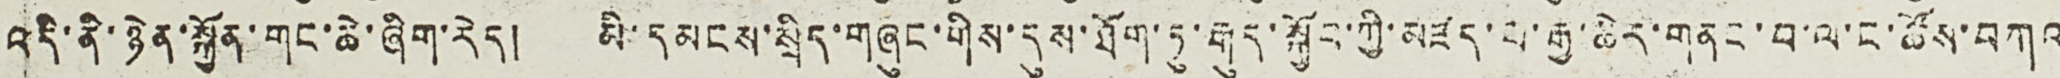འདི་ནི་ཉེན་སྐྱོན་གང་ཆེ་ཞིག་རེད། མི་དམངས་སྲིད་གཞུང་གིས་དུས་ཐོག་ཏུ་རྒུད་སྐྱོབ་ཀྱི་མཛད་པ་རྒྱ་ཆེར་གནང་བ་ལ་ང་ཚོས་བཀའ
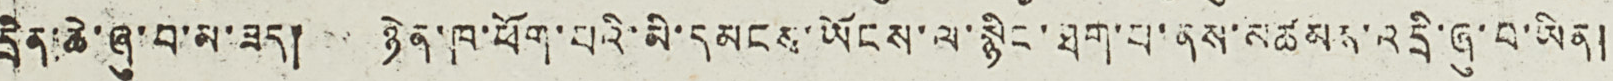དྲིན་ཆེ་ཞུ་བ་མ་ཟད། ཉེན་ཁ་ཕོག་པའི་མི་དམངས་ཡོངས་ལ་སྙིང་ཐག་པ་ནས་མཚམས་འདྲི་ཞུ་བ་ཡིན།
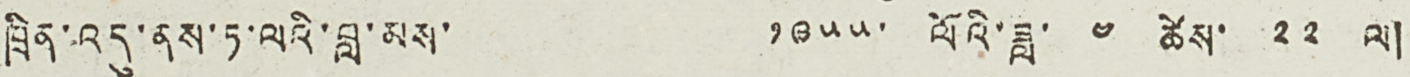ཁྲིན་འདུ་ནས་ཏ་ལའི་བླ་མས་ ༡༩༥༥་ ལོའི་ཟླ་ ༤ ཚེས་ ༢༢ ལ།
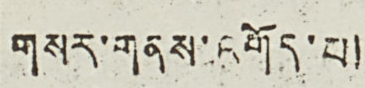གསར་གནས་འགོད་པ།
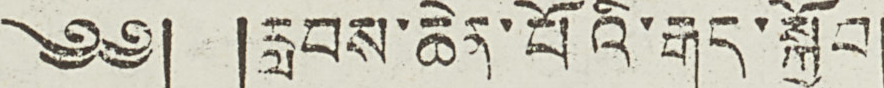༄༅། །རླབས་ཆེན་པོའི་རྒུད་སྐྱོབ།
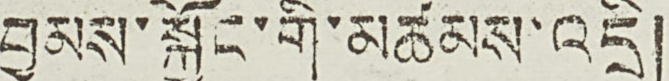བྱམས་སྐྱོང་གི་མཚམས་འདྲི།
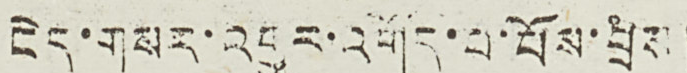ངེད་གསར་འགྱུར་འགོད་པ་པོས་བྲིས།
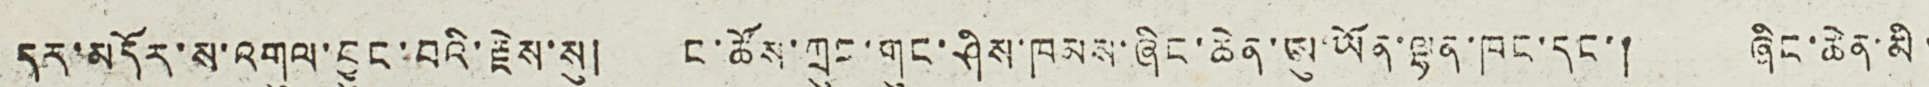དར་མདོར་ས་འགུལ་བྱུང་བའི་རྗེས་སུ། ང་ཚོས་ཀྲུང་གུང་ཤིས་ཁམས་ཞིང་ཆེན་ཨུ་ཡོན་ལྷན་ཁང་དང་། ཞིང་ཆེན་མི་
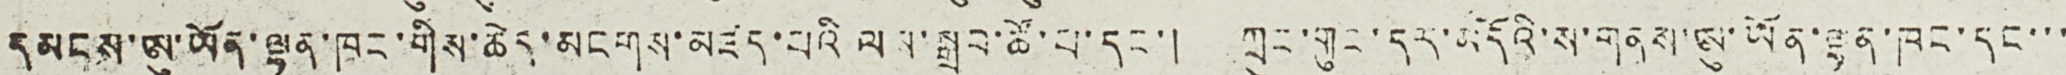དམངས་ཨུ་ཡོན་ལྷན་ཁང་གིས་ཆེད་མངགས་མཛད་པའི ལས་སྒྲུབ་ཚོ་པ་དང་། ཀྲུང་གུང་དར་མདོའི་ས་གནས་ཨུ་ཡོན་ལྷན་ཁང་དང་་་
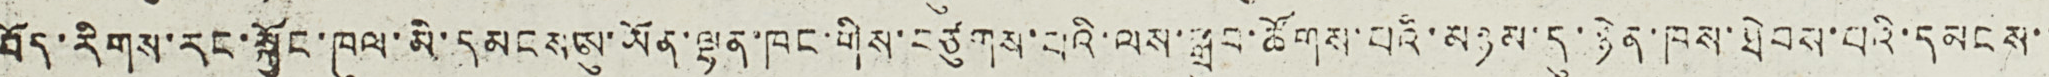བོད་རིགས་རང་སྐྱོང་ཁུལ་མི་དམངས་ཨུ་ཡོན་ལྷན་ཁང་གིས་བཙུགས་པའི་ལས་སྒྲུབ་ཚོགས་པའི་མཉམ་དུ་ཉེན་ཁས་ཐེབས་པའི་དམངས་་
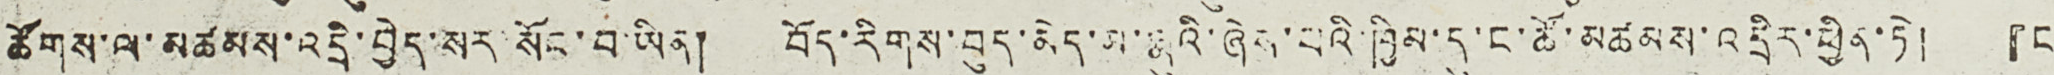ཚོགས་ལ་མཚམས་འདྲི་བྱེད་སར་སོང་བ་ཡིན། བོད་རིགས་བུད་མེད་མ་རྣུའི་ཞེས་པའི་ཁྱིམ་དུ་ང་ཚོ་མཚམས་འདྲིར་ཕྱིན་ཏེ། 『ང་
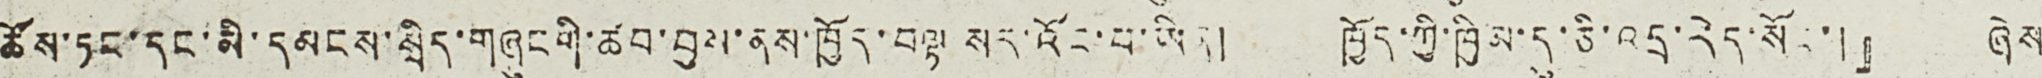ཚོས་ཏང་དང་མི་དམངས་སྲིད་གཞུངགི་ཚབ་བྱས་ནས་ཁྱོད་བལྟ སར་འོང་བ་ཡིན། ཁྱོད་ཀྱི་ཁྱིམ་དུ་ཅི་འདྲ་རེད་སོང་།』 ཞེས་
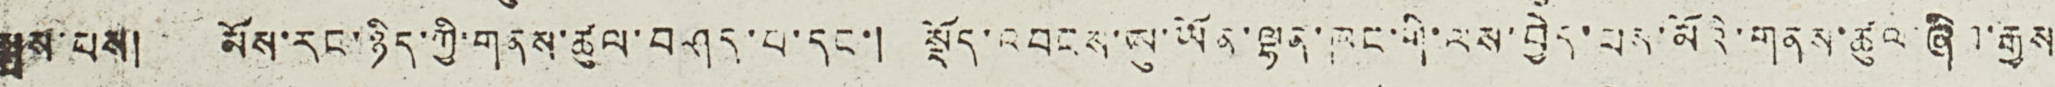སྨྲས་པས། མོས་རང་ཉིད་ཀྱི་གནས་ཚུལ་བཤད་པ་དང་། སྡོད་འབངས་ཨུ་ཡོན་ལྷན་ཁང་གི་ལས་བྱེད་པས་མོའི་གནས་ཚུལ་ཞིབ་རྒྱས
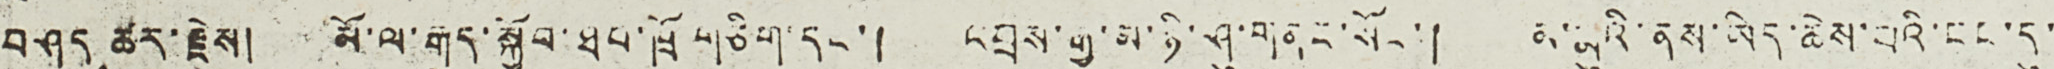བཤད ཚར་རྗེས། མོ་ལ་རྒུད་སྐྱོབ་ཐབ་ཁྲོ གཅིག་དང་། འབྲས་རྒྱ་མ་ཉི་ཤུ་གནང་སོང་། མ་རྨུའི་ནས་ཡིད་ཆེས་པའི་ངང་དུ་
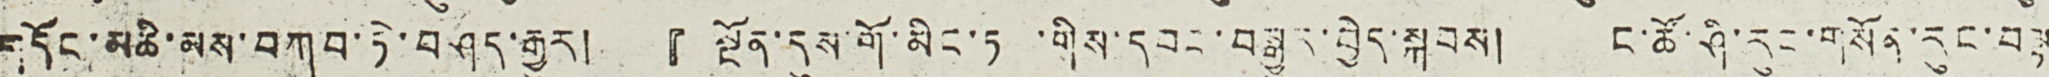གདོང་མཆི་མས་བཀབ་ཏེ་བཤད་རྒྱུར། 『 སྔོན་དུས་གོ་མིང་ཏ ་གིས་དབང་བསྒྱུར་བྱེད་སྐབས། ང་ཚོ་ཤི་རུང་གསོན་རུང་བལྟ
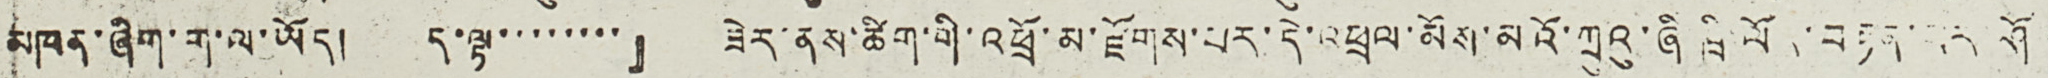མཁན་ཞིག་ག་ལ་ཡོད། ད་ལྟ་་་་་་་་』 ཟེར་ནས་ཚིག་གི་འཕྲོ་མ་རྫོགས་པར་དེ་འཕྲལ་མོས་མའོ་ཀྲུའུ་ཞི ཁྲི་ལོར་བརྟན་པར་ཤོག
